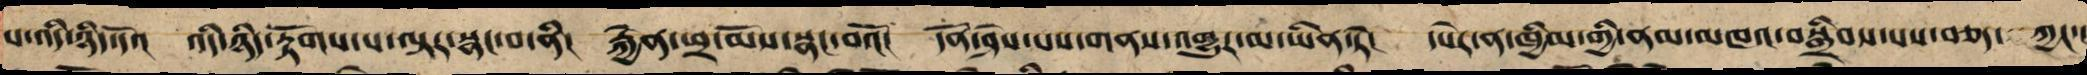པ་འདི་ཉིད་དོ་། འདི་ཉིད་རྟོག་པ་ལྟར་སྣང་བ་ནི། རྐྱེན་ཕྲ་མོས་སྣང་བའོ། དོན་ཤེས་པས་གནས་འགྱུར་མ་ཡིན་ཏེ། དཔེར་ན་ཁྱིམ་གྱི་ནམ་མཁའ་བསྒྲིབས་པས་བཅད་་་ཀྱང་།
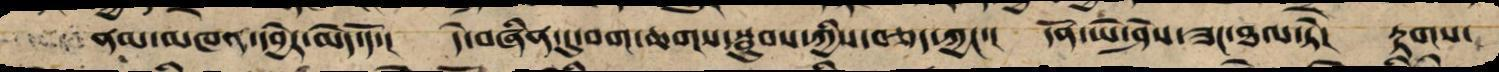ནམ་མཁའ་དབྱེར་མེད་དོ་། དེ་བཞིན་དུ་བག་ཆགས་སྦུབས་ཀྱིས་བཅད་ཀྱང་། དོན་ཡེ་ཤེས་ཟང་ཐལ་ཏེ། རྟགས་
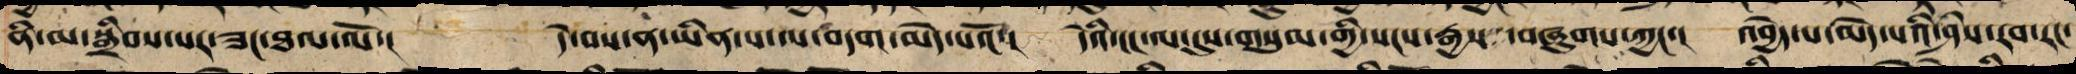ན་མ་སྒྲིབས་པར་ཟང་ཐལ་ལོ་། དེ་བས་ན་ཡིན་པ་ལ་བདག་མེད་པའོ་། དེའི་ངང་ལ་དུས་གསུམ་གྱི་སངས་རྒྱས ་བཞུགས་ཀྱང་། འབྱེད་པ་མེད་པའི་ཤེས་རབ་རང་
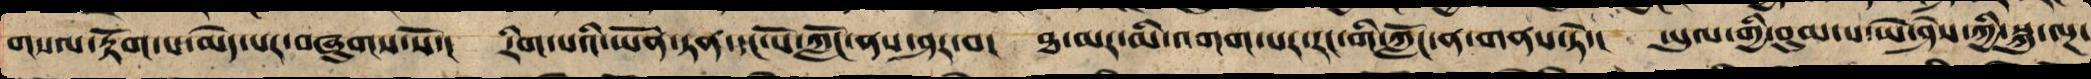གསལ་རྟོག་པ་མེད་པར་བཞུགས་སོ་། རིག་པའི་ཡོན་ཏན་དང་པོ་ཀློང་ནས་ཤར་བ། ཐ་མར་མི་འགག་པར་རང་གི་ཀློང་ན་གནས་ཏེ་། ཡུལ་གྱི་བུམ་པ་ཡེ་ཤེས་ཀྱི་སྐུ་ལྔ་
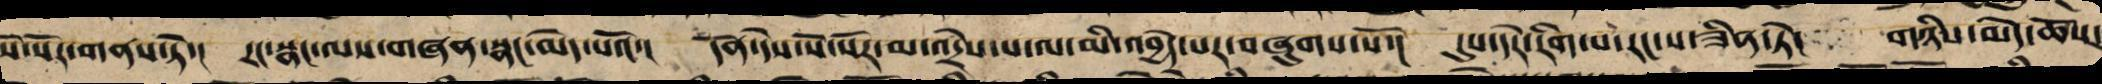སོ་སོར་གནས་ཏེ་། རང་སྣང་ལས་གཞན་སྣང་མེད་པའོ་། དོན་དེས་སོ་སོར་མ་འདྲེས་པ་ལ་མི་འབྱེད་པར་བཞུགས་སོ་། དུས་དེར་རིག་པ་རང་ས་ཟིན་ཏེ། གཉིས་མེད་ཆོས་
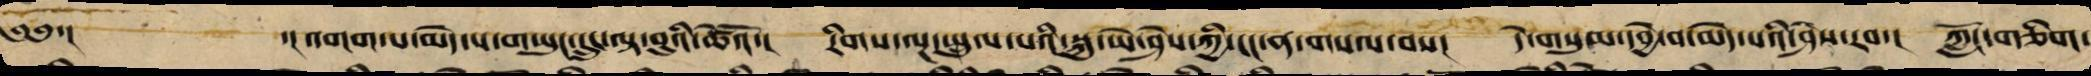༄༅་། ་།འགག་པ་མེད་པ་གཡུང་དྲུང་ལྟ་བུའི་ཚེའོ་། རིགས་ལྔ་སྤྲུལ་པའི་སྐུ་ཡེ་ཤེས་ཀྱི་ངང་ན་གསལ་བས། དེ་གསུམ་དབྱེ་བ་མེད་པའི་ཤེས་རབ་། ཀློང་གཅིག་
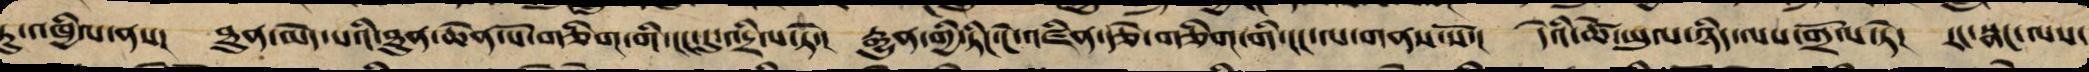ཏུ་འཁྱིལ་ནས། ཐུན་མེད་པའི་ཐུན་ཆེན་པོ་གཅིག་གི་ངང་དུ་འདྲིལ་ཏེ་། རྒྱུན་གྱི་ཏིང་ངེ་འཛིན་རྩེ་གཅིག་གི་ངང་ལ་གནས་སོ་། དེའི་ཚེ་ཡུལ་ཉིད་ལས་གྲོལ་ཏེ། རང་སྣང་ལས་
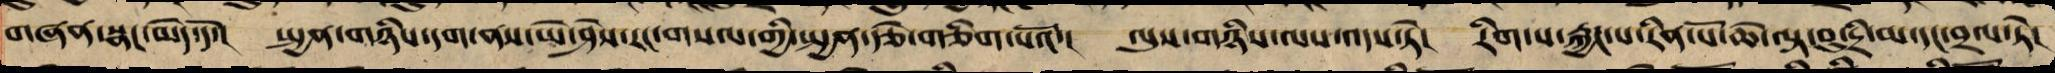གཞན་སྣང་མེད་དོ་། སྤྱན་གཉིས་དག་ནས་ཡེ་ཤེས་རང་གསལ་གྱི་སྤྱན་རྩེ་གཅིག་པའོ་། ལུས་གཉིས་ལས་འདས་ཏེ། རིག་པ་རྐྱང་པ་རིན་པོ་ཆེ་ལྟ་བུ་དྲི་མ་དང་བྲལ་ཏེ།
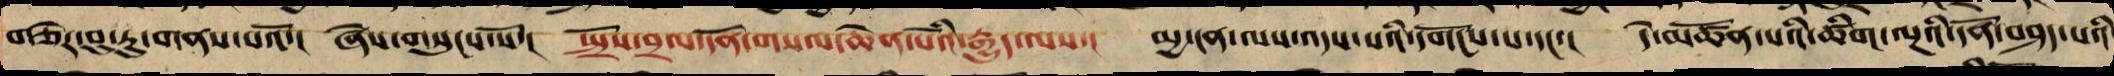གཅེར་བུ་རུ་གནས་པའོ་། ཞེས་གསུངས་སོ་། སྤྲོས་བྲལ་དོན་གསལ་ཆེན་པོའི་རྒྱུད་ལས་། མྱ་ངན་ལས་འདས་པའི་དགོངས་པ་དང་། དེ་མཚོན་པའི་ཚིག་ལྔའི་དོན་བཤད་པའི
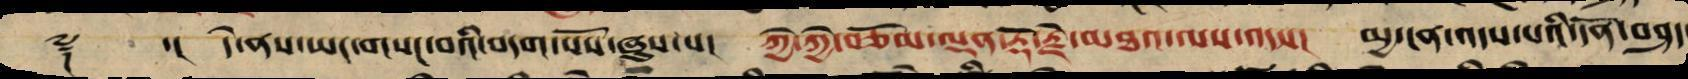༈ ་། དེ་ནས་ཡང་གསང་བའི་བདག་པོས་ཞུས་པ། ཀྱེ་ཀྱེ་བཅོམ་ལྡན་རྡོ་རྗེ་མཐའ་ལས་འདས། མྱ་ངན་འདས་པའི་དོན་བཤད་
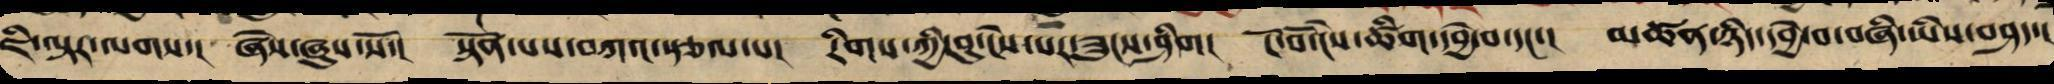ཇི་ལྟར་ལགས་། ཞེས་ཞུས་སོ་། སྟོན་པས་བཀའ་སྩལ་པ། རིགས་ཀྱི་བུ་ངེས་པར་ཟུངས་ཤིག། ངོ་བོ་ངེས་ཚིག་དབྱེ་བ་དང་། མཚན་ཉིད་དབྱེ་བ་བཞི་ཡིས་བཤད་།
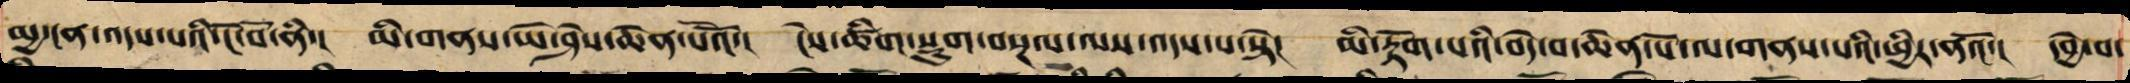མྱ་ངན་འདས་པའི་ངོ་བོ་ནི་། མི་གནས་ཡེ་ཤེས་ཆེན་པོའོ་། ངེས་ཚིག་སྡུག་བསྔལ་ལས་འདས་པ་སྟེ། མི་རྟོག་པའི་བདེ་བ་ཆེན་པོ་ལ་གནས་པའི་ཕྱིར་ནའོ་། དབྱེ་བ་
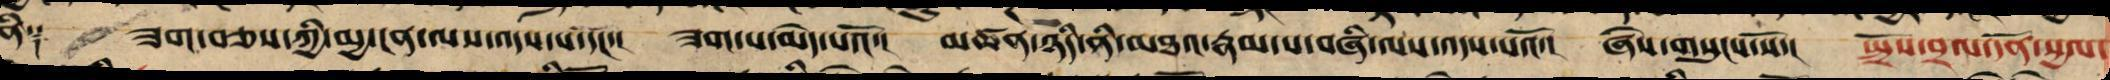ནི༑ ཟག་བཅས་ཀྱི་མྱ་ངན་ལས་འདས་པ་དང་། ཟག་པ་མེད་པའོ་། མཚན་ཉིད་ནི་མཐའ་རྣམ་པ་བཞི་ལས་འདས་པའོ་། ཞེས་གསུངས་སོ་། སྤྲོས་བྲལ་དོན་སྱལ་
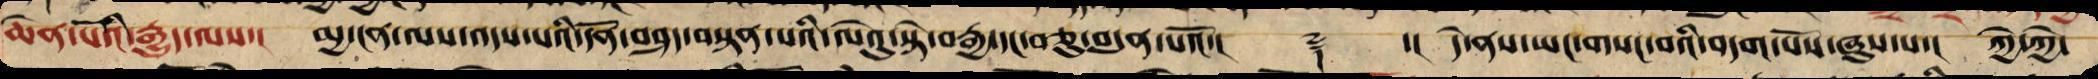ཆེན་པོའི་རྒྱུད་ལས་། མྱ་ངན་ལས་འདས་པའི་དོན་བཤད་བསྟན་པའི་ལེའུ་སྟེ་བརྒྱ་དང་བཅུ་བདུན་པའོ་།། ༈ ་། དེ་ནས་ཡང་གསང་བའི་བདག་པོས་ཞུས་པ་། ཀྱེ་ཀྱེ་
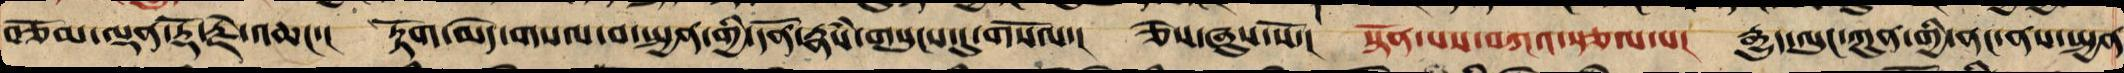བཅོམ་ལྡན་རྡོ་རྗེ་འཆང་། རྟོག་མེད་གསལ་བ་སྤྱན་གྱི་དོན་རྣཾས་གསུངས་དུ་གསོལ་། ཅེས་ཞུས་སོ་། སྟོན་པས་བཀའ་སྩལ་པ། རྒྱུད་ལུང་ཀུན་གྱི་ནང་ན་སྤྱན་
